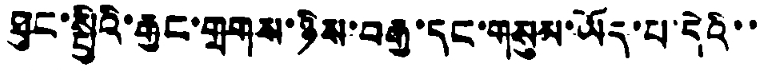ཐུང་སྤྱིའི་རྒྱང་གྲགས་ཉིས་བརྒྱ་དང་གསུམ་ཡོད་པ་དེའི་་
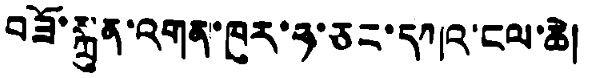བཟོ་སྐྲུན་འགན་ཁུར་ཧ་ཅང་དཀའ་ངལ་ཆེ།
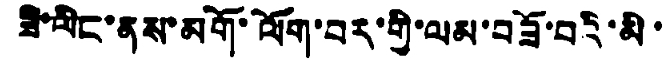ཟི་ལིང་ནས་མགོ་ལོག་བར་གྱི་ལམ་བཟོ་བའི་མི་
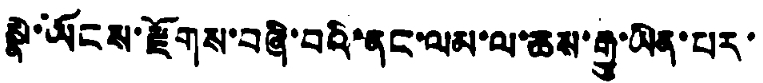སྣེ་ཡོངས་རྫོགས་བཞི་བའི་ནང་ལམ་ལ་ཆས་རྒྱུ་ཡིན་པར་
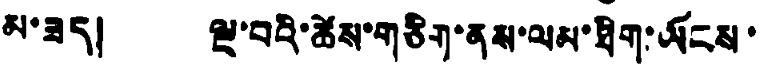མ་ཟད། ལྔ་བའི་ཚེས་གཅིག་ནས་ལམ་ཐིག་ཡོངས་
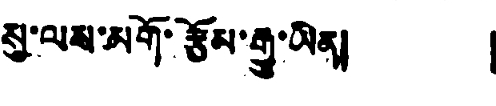སུ་ལས་མགོ་རྩོམ་རྒྱུ་ཡིན། །
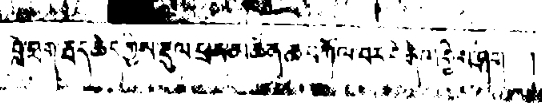བླེ་ཐག་རྦད ཆེད་ཀྱིས་རྡུལ་ཕྲམ མཚན ཆ བཀོད་བར་ངོ་རྒོལ་བྱེས་ཤིག །
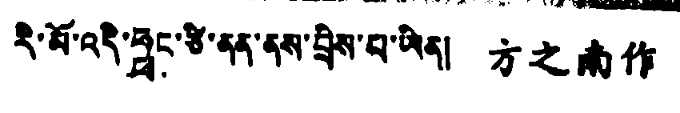རི་མོ་འདི་ཧྥང་ཙི་ནན་ནས་བྲིས་པ་ཡིན། 方之南作
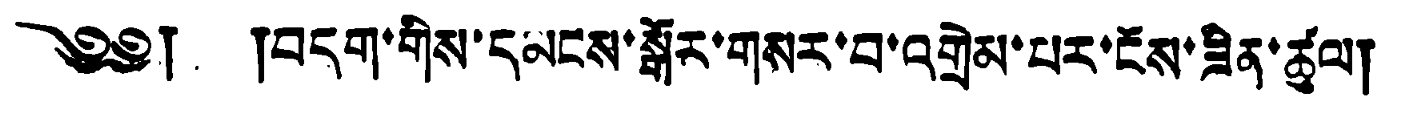༄༅། །བདག་གིས་དམངས་སྒོར་གསར་བ་འགྲེམ་པར་ངོས་ཟིན་ཚུལ།
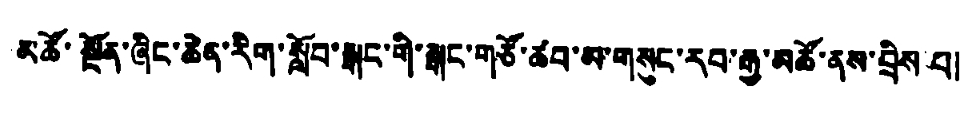མཚོ་སྔོན་ཞིང་ཆེན་རིག་སློབ་སྒང་གི་སྒང་གཙོ་ཚབ་མ་གསུང་རབ་རྒྱ་མཚོ་ནས་བྲིས པ།
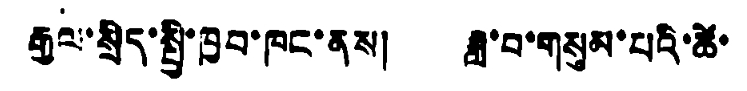རྒྱལ་སྲིད་སྤྱི་ཁྱབ་ཁང་ནས། ཟླ་བ་གསུམ་པའི་ཚེ་
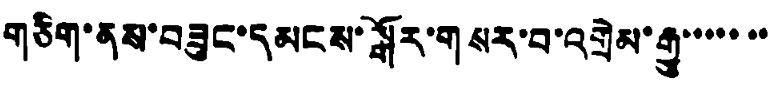གཅིག་ནས་བཟུང་དམངས་སྒོར་གསར་བ་འགྲེམ་རྒྱུ་་་་་་་
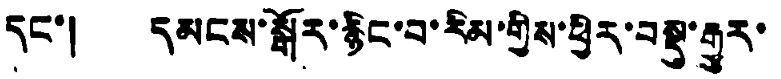དང་། དམངས་སྒོར་རྙིང་བ་རིམ་གྱིས་ཕྱིར་བསྡུ་རྒྱུར་
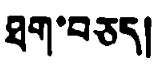ཐག་བཅད།
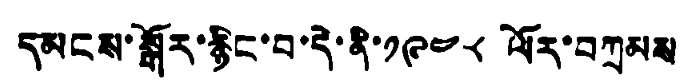དམངས་སྒོར་རྙིང་བ་དེ་ནི་༡༩༤༨ ལོར་བཀྲམས
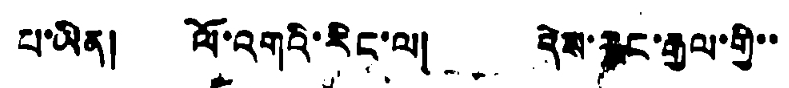པ་ཡིན། ལོ་འགའི་རིང་ལ། དེས་རང་རྒྱལ་གྱི་་
